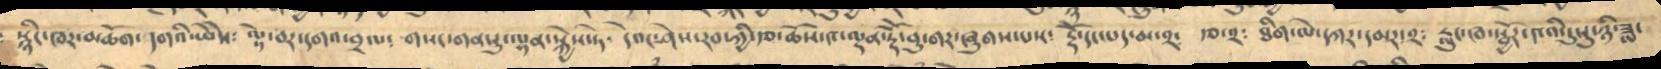སྙིང་ཁར་མཆོག་དགའི་ཡེསེ༴ ལྟེ་བར་དགའ་བྲལ༴ གསང་གནསུ་ལྟན་སྐྱེས་ཏེ༴  དེ་དང་ཤེས་རབ་ཀྱི་རྩ་ཆོས་༤་ལྟན་རྡེོ་བུ་གར་ཞུགས་པས༴  རྡེོནདང་པད་མ་བྲ༴ རྩ་༢༴ ཐིག་ལེ་དཀར་དམར་༢༴ རླུང་ཁ་སྦྱོར་༤འི་དུསུ་ཉི་ཟླ་
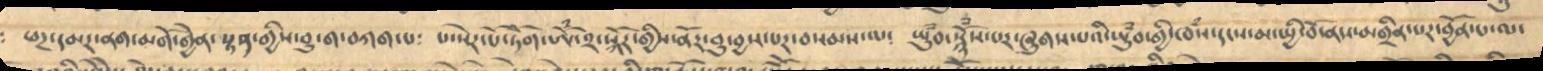ཕཌ་དམར་ནག་མགོ་གྱེན་སྟན་གྱིས་བུ་ག་བཀག་པ༴  པ་སེར་པོ་ཏོཾག་ཨོཾ་༢་སྐོར་གྱིས་ནོར་བུ་བྱས་པར་བསམས་ལ༴ ཡུཾབ་སྙོཾས་པར་ཞུགས་པའི་ཡུཾབ་གྱི་ཁཾས་དངས་མ་སྤྱི་བོ་ནས་མགྲིན་པར་བྱོན་པ་ལ་
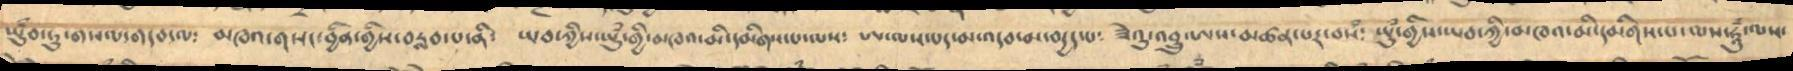ཡུཾབ་ཏུ་གསལ་གདབ་ལ༴ མཁའ་གསང་བྱིན་གྱིས་བརླབ་པ་ནི༴ ཡབ་ཀྱིས་ཡུཾ་གྱི་མཁའ་མི་དམིགས་པ་ལས༴ ཨ་ལས་པར་མ་འདབ་མ་བདྱད་པ༴ ཟེའུ་འབྱུ་ཨས་མཚན་པར་བསཾ༴ ཡུཾ་གྱིས་ཡབ་ཀྱི་མཁའ་མི་དམིགས་པ་མས་ཧཱུཾ་ལས་
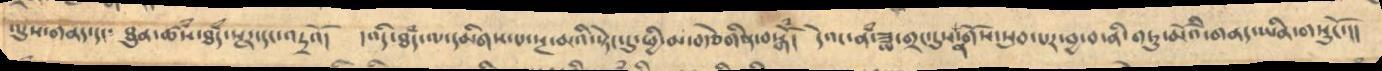ལུས་གནད་དང༴ ཐུན་ཚཾས་ཐཾད་སྔར་དང་འདྲའོ།  །འདི་ཐཾདལ་དམིགས་པ་སྔ་མའི་སྟེང་དུ་ཕྱི་མ་བརྩེགིན་བསྒོྃ། དེའང་ནཾ་ཟླ་གྲང་དུས་གོས་ཕུབ་པར་བྱ་བ་ནི་གཏུ་མོའི་གནད་ཡིན་གསུངོ་།།
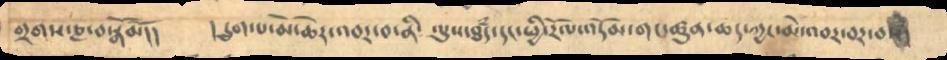གྲགས་ཎ་བསྒོམོ།།  །དྲུག་པ་མེ་ཆེར་འབར་བ་ནི་  ལུས་ཐཾད་དང་ཕྱི་རོལ་འདོམ་གང་ཚུན་ཆད་ཀྱང་མེ་འབར་བར་བས་
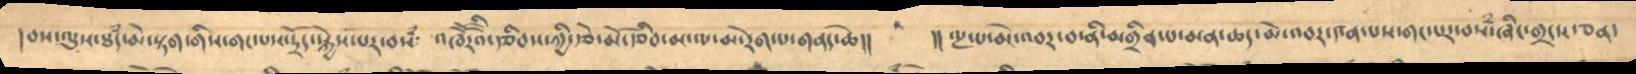།བས་ལུས་ཐཾད་ཆེ་སྟག་གིས་གང་པས་དྲོད་སྐྱེས་པར་བསཾ༴  འཁོོརལི་རྩིབ་མ་ལ་རེག་པ་གནད་ཆེ།།   །། ལྔ་པ་མེ་འབར་བ་ནི་མགྲིན་པ་མན་ཆད་མེ་འབར་༤ན་པས་གང་པར་བསཾ་ཞིང་གྲངས་ཅན་
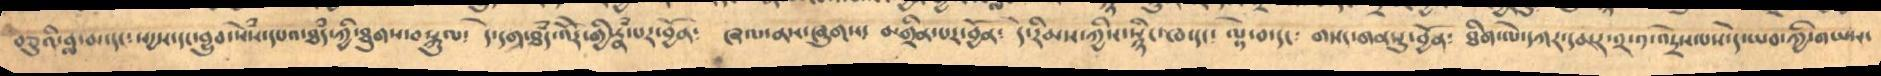བཅུའི་བླ་མ་དང་སདྱས་དང་བྱུབ་སེཾས་དཔའ་ཐཾད་ཀྱི་ཐུགས་བསྐུལ༴ དེ་དག་ཐཾད་འོེར་གྱི་རྣཾ་པར་བྱོན༴  ཞལ་ནས་ཞུགས༴ མགྲིན་པར་བྱོན༴  དེ་རིམས་ཀྱིས་སྙིང་ཁ་དདང༴ ལྟེ་བ་དང༴  གསང་གནསུ་བྱོན༴  ཐིག་ལེ་དཀར་དམར་༢་༡་འདྲེས་པས་དེ་ཡབ་ཀྱི་གཡདར་
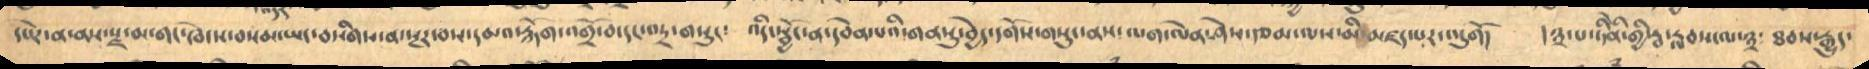དཔེར་ན་ནས་སྗ་མ་གང་ཁེ་ས་བསམ་ཡང་བསིགས་ན་སྔར་བས་དམའ་རྐོག་འགྲོ་བ་དང་འདྲ་གསུང༴  འདི་སྦྱོང་ན་དབེན་པའི་གནསུ་བྱེད་དགོས་གསུང་ནས་ལག་ལེན་ཤེས་རྩམ་ལས་མི་མཛད་པར་འདུགོ།  །༣་པ་ཏིེན་གྱིས་རྦ་རླབས་ལ་༣་ ཐབས་རྒྱུད་
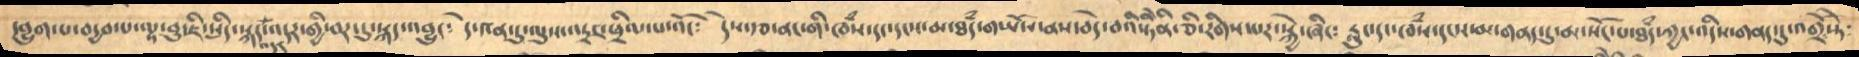དབྱུག་པ་བདྱབ་པ་ལྷ་བུ་ཇི་སྲིད་སྐད་འདར་གྱི་བར་དུ་སྐད་འབྱུང༴  དེ་༤ན་དུ་ལུས་འདྲང་ཕྲིལ་པ་འོངོ༴  དེས་རྩ་ནང་གི་ཁཾས་དང་དངས་མ་ཐཾད་གཡོས་ནས་བདེ་བའི་ཏིེིན་ཅི་རིགས་པར་སྐྱེ་ཞིང༴  རླུང་དངཁཾས་དངས་མ་གནད་དུ་མ་སོང་པ་ཐཾད་ཀྱང་འདིས་གནད་དུ་འགྲོ་ཏེ
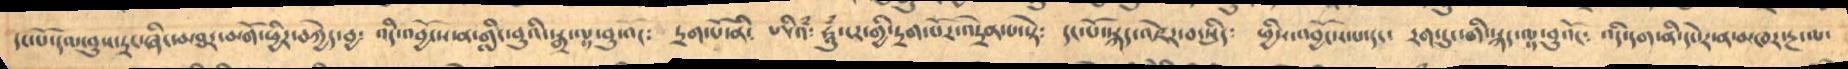དང་པོ་དེལ་ནུས་དྲང་ཞིང་མཐར་མགོ་ཕྱིར་བཀྱེད་བྱ༴  འདི་འབྱོངས་ན་གླིང་བུའི་སྒྲ་ལྟ་བུ་འང༴  ཏྲག་པོ་ནི༴ ཨིའཾ༴ ཧཱུཾ་ངར་གྱི་ཏྲག་པོར་འཏྲེན་པ་སྟེ༴ དང་པོ་སྐད་འཛེར་བ་སྲིད༴  ཕྱིས་འབྱོངས་པ་དང་  རག་དུང་གི་སྐད་ལྟ་བུའོང༴ འདི་དག་ནི་དཔེར་ན་མཁར་རྔ་ལ་
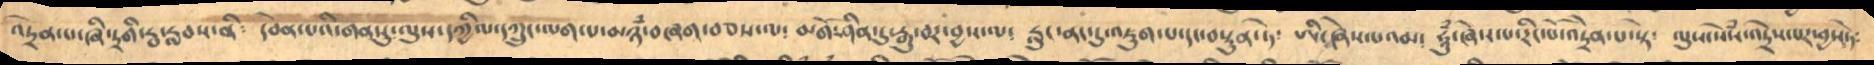འཏྲེན་པ་ཞི་དྲགི་རྦ་རླབས་ནི༴ དབེན་པའི་གནསུ་ལུས་དཀྱིལ་དཀྲུང་ལག་པ་མཉཾ་བཞག་བཅས་ལ༴ མགོ་ཤིན་དུ་རྒུ་བར་བྱས་ལ༴ རླུང་ནང་དུ་འཇུག་པ་དང་བསྟུན་ཏེ༴ ཨི་ཞེས་ལའམ༴ ཧཱུཾ་ཞེས་པ་རིང་པོ་འདྲེན་པ་སྟེ༴ ལུས་སེཾས་འདྲེས་པར་བྱསཏེ༴
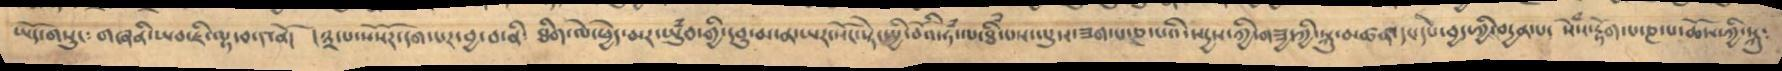ཡོད་གསུང༴ གཞནི་ཡབ་ཇི་ལྟ་བ་༤བོ།  དེ༣་སེསོར་དགེ་པར་བྱ་བ་ནི༴ ཐིག་ལེ་ཕྱེད་མར་ཡུཾབ་གྱི་དབུ་མ་ན་ཡར་སོང་སྟེ་སྤྱི་བོའི་ཧཾ་ལ་ཐིཾ་པས་ལུས་ཟག་པ་ཎ་པའི་སརྱས་ཀྱི་གཟྱ་ཀྱི་སྐུ་མཚན་དང་དཔེ་བྱད་ཀྱི་བརྱན་པ།  སེཾས་རྟོག་པ་ཎ་པ་ཆོས་ཀྱི་སྐུ༴
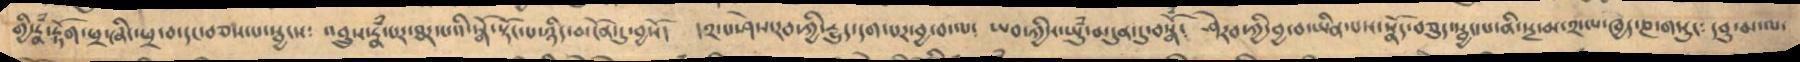གྱི་རྣཾ་རྟོག་ཕྲ་ཞིང་ཕྲ་བ་དང་བཅས་པ་སྦྱངས༴  འབྱུས་རྣཾ་པར་ཐར་པའི་སྒོ་རྟོང་པ་ཉིད་མདོན་དུ་བྱསོ། །༢་པ་ཤེས་རབ་ཀྱི་རྱུད་དག་པར་བྱ་བ་ལ༴ ཡབ་ཀྱི་ཡུཾ་མདུན་དུ་བསྣོཾ༴  ཤེརབ་ཀྱི་བྱ་བ་ཡིན་པས་སྣོད་བཅུད་སྦྱང་པ་ནི་སྔ་མ་༢་ལ་ཁྱད་ཎ་གསུང༴ དབུ་མ་ལ་
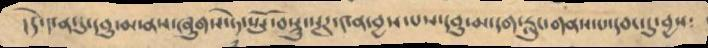།དེ་ད་ན་དུ་དབུ་མ་ནས་ཞུགས་ཏེ་སྔོར་བསྡུ་སྔར་༤ན་བྱས་པས་དབུ་མ་དག་རླུང་གནས་པ་དབང་དུ་བྱས༴
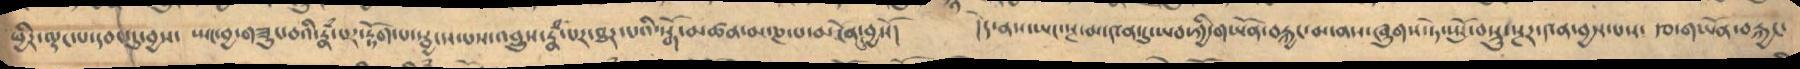ཕྱིར་ལྡང་པ་དབང་དུ་བྱས་ ཡང་བྱ་གཟུང་བའི་རྣཾ་པར་རྟོག་པ་སྦྱངས་པས་འབྲུས་རྣཾ་པར་ཐར་པའི་སྒོ་མཚན་མ་ཎ་པ་མངོན་བྱསོ། །དེ་ནས་ཡང་སྔ་མ་༤ན་དུ་ཡབ་ཀྱི་གཡོན་བརྐྱང་མ་ནས་ཞུགས་ཏེ་སྤོ་བསྡུ་སྔར་༤ན་བྱས་པས་ རྩ་གཡོན་བརྐྱང་
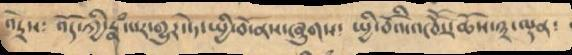འདྲེས༴ འོད་ཀྱི་རྣཾ་པར་གྱུར་ཏེ་སྤྱི་བོ་ནས་ཞུགས༴ སྤྱི་བོའི་འཁོོར་ཆོས་༣་ལྡན༴
